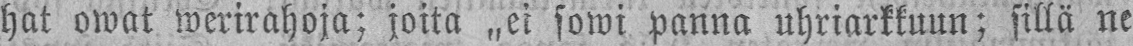hat owat werirahoja; joita „ei sowi panna uhriarkkuun; sillä ne
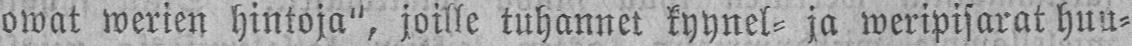owat werien hintoja", joille tuhannet kyynel- ja weripisarat huu-
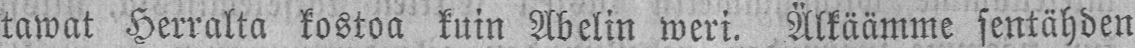tawat Herralta kostoa kuin Abelin weri. Älkäämme sentähden
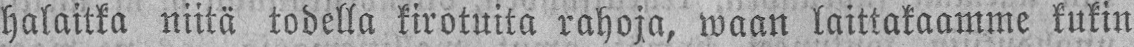halaitka niitä todella kirotuita rahoja, waan laittakaamme kukin
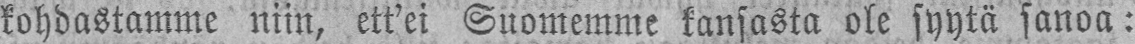kohdastamme niin, ett'ei Suomemme kansasta ole syytä sanoa:
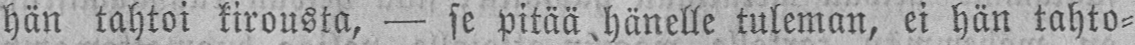hän tahtoi kirousta, — se pitää hänelle tuleman, ei hän tahto-
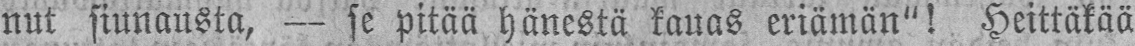nut siunausta, — se pitää hänestä kauas eriämän"! Heittäkää
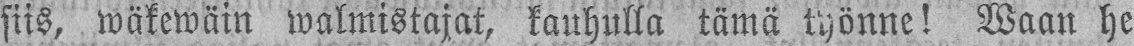siis, wäkewäin walmistajat, kauhulla tamä työnne! Waan he
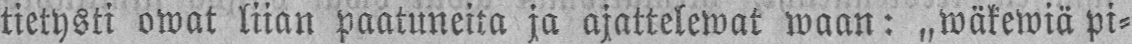tietysti owat liian paatuneita ja ajattelewat waan: „wäkewiä pi-
